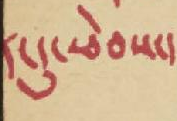དུ་ཕེབས་
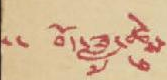བོད་ཟླ་ ༦ ཚེས་ ༦
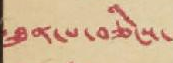ཐུན་པ་བཅིངས་
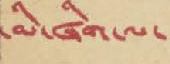མི་ཞིག་ལ་
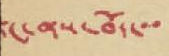ནས་བོད་་
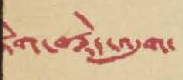བརྙེད་ལུག་
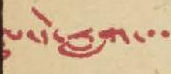དེ་རླག་་
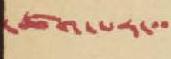ཚག་པར་་
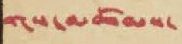མཚམས་
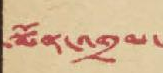སྨོན་འགྲམ་
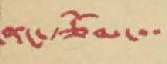ནང་ཙོམ་བ་
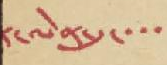ལེན་དུ་་་
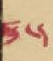ར་
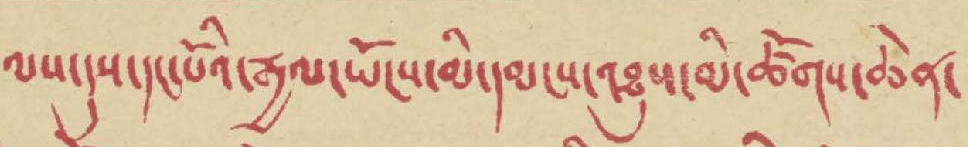ལས་དུས་དང་པོའི་རྒྱལ་ཡོངས་མི་དམངས་འཐུས་མི་ཚོགས་ཆེན་
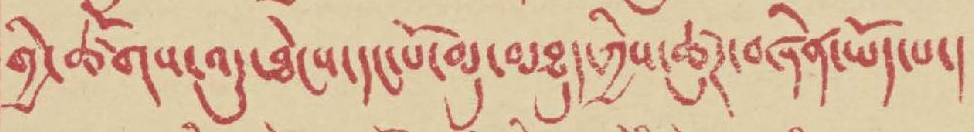གྱི་ཚོགས་འདུ་ཐེངས་དང་པོ་མུ་མཐུད་ཀྱིས་ཚུཊ་བཞིན་ཡོད་པ་།
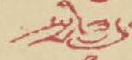སྤྱི་ཟླ་
